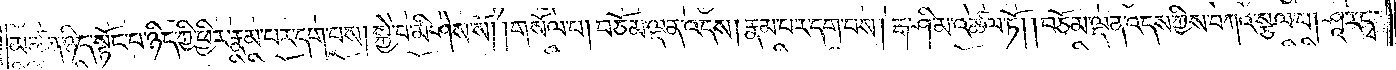མཚན་ཉིད་སྟོང་པ་ཉིད་ཀྱི་ཕྱིར་རྣམ་པར་དག་པས། སྐྱེ་བ་མི་ཤེས་སོ། །གསོལ་པ། བཅོམ་ལྡན་འདས། རྣམ་པར་དག་པས། རྒ་ཤི་མ་འཚལ་ཏོ། །བཅོམ་ལྡན་འདས་ཀྱིས་བཀའ་སྩལ་པ། ཤཱ་ར་དྭ་
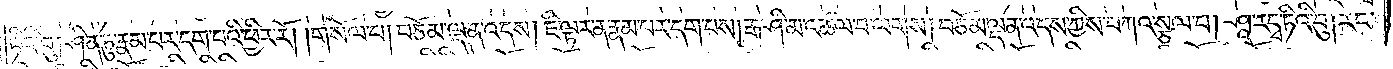ཏིའི་བུ། ཤིན་ཏུ་རྣམ་པར་དག་པའི་ཕྱིར་རོ། །གསོལ་པ། བཅོམ་ལྡན་འདས། ཇི་ལྟར་ན་རྣམ་པར་དག་པས། རྒ་ཤི་མ་འཚལ་བ་ལགས། བཅོམ་ལྡན་འདས་ཀྱིས་བཀའ་སྩལ་པ། ཤཱ་ར་དྭ་ཏིའི་བུ། རང་
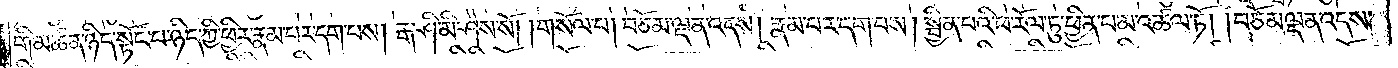གི་མཚན་ཉིད་སྟོང་པ་ཉིད་ཀྱི་ཕྱིར་རྣམ་པར་དག་པས། རྒ་ཤི་མི་ཤེས་སོ། །གསོལ་པ། བཅོམ་ལྡན་འདས། རྣམ་པར་དག་པས། སྦྱིན་པའི་ཕ་རོལ་ཏུ་ཕྱིན་པ་མ་འཚལ་ཏོ། །བཅོམ་ལྡན་འདས་
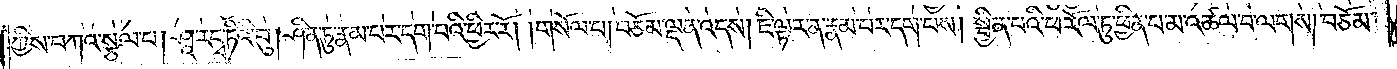ཀྱིས་བཀའ་སྩལ་པ། ཤཱ་ར་དྭ་ཏིའི་བུ། ཤིན་ཏུ་རྣམ་པར་དག་པའི་ཕྱིར་རོ། །གསོལ་པ། བཅོམ་ལྡན་འདས། ཇི་ལྟར་ན་རྣམ་པར་དག་པས། སྦྱིན་པའི་ཕ་རོལ་ཏུ་ཕྱིན་པ་མ་འཚལ་བ་ལགས། བཅོམ་
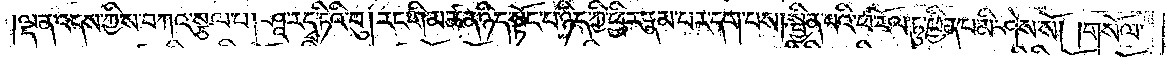ལྡན་འདས་ཀྱིས་བཀའ་སྩལ་པ། ཤཱ་ར་དྭ་ཏིའི་བུ། རང་གི་མཚན་ཉིད་སྟོང་པ་ཉིད་ཀྱི་ཕྱིར་རྣམ་པར་དག་པས། སྦྱིན་པའི་ཕ་རོལ་ཏུ་ཕྱིན་པ་མི་ཤེས་སོ། །གསོལ་
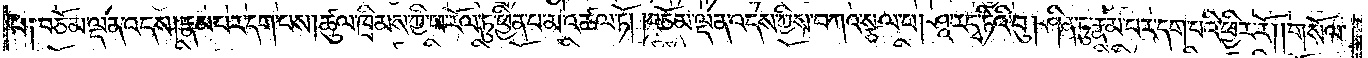པ༑ བཅོམ་ལྡན་འདས། རྣམ་པར་དག་པས། ཚུལ་ཁྲིམས་ཀྱི་ཕ་རོལ་ཏུ་ཕྱིན་པ་མ་འཚལ་ཏོ། །བཅོམ་ལྡན་འདས་ཀྱིས་བཀའ་སྩལ་པ། ཤཱ་ར་དྭ་ཏིའི་བུ། ཤིན་ཏུ་རྣམ་པར་དག་པའི་ཕྱིར་རོ། །གསོལ་
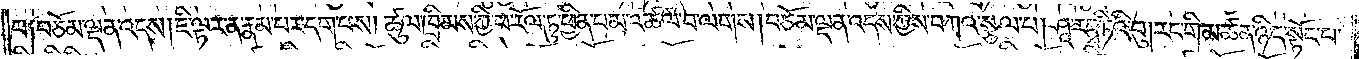པ༑ བཅོམ་ལྡན་འདས། ཇི་ལྟར་ན་རྣམ་པར་དག་པས། ཚུལ་ཁྲིམས་ཀྱི་ཕ་རོལ་ཏུ་ཕྱིན་པ་མ་འཚལ་བ་ལགས། བཅོམ་ལྡན་འདས་ཀྱིས་བཀའ་སྩལ་པ། ཤཱ་ར་དྭ་ཏིའི་བུ། རང་གི་མཚན་ཉིད་སྟོང་པ་
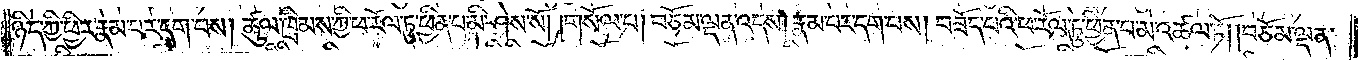ཉིད་ཀྱི་ཕྱིར་རྣམ་པར་དག་པས། ཚུལ་ཁྲིམས་ཀྱི་ཕ་རོལ་ཏུ་ཕྱིན་པ་མི་ཤེས་སོ། །གསོལ་པ། བཅོམ་ལྡན་འདས། རྣམ་པར་དག་པས། བཟོད་པའི་ཕ་རོལ་ཏུ་ཕྱིན་པ་མ་འཚལ་ཏོ། །བཅོམ་ལྡན་
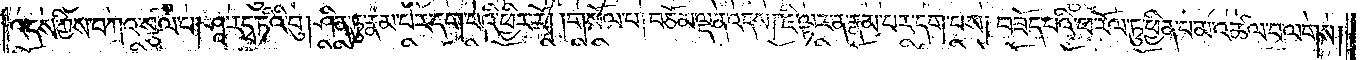འདས་ཀྱིས་བཀའ་སྩལ་པ། ཤཱ་ར་དྭ་ཏིའི་བུ། ཤིན་ཏུ་རྣམ་པར་དག་པའི་ཕྱིར་རོ། །གསོལ་པ། བཅོམ་ལྡན་འདས། ཇི་ལྟར་ན་རྣམ་པར་དག་པས། བཟོད་པའི་ཕ་རོལ་ཏུ་ཕྱིན་པ་མ་འཚལ་བ་ལགས།
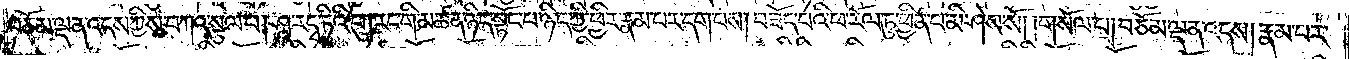བཅོམ་ལྡན་འདས་ཀྱིས་བཀའ་སྩལ་པ། ཤཱ་ར་དྭ་ཏིའི་བུ། རང་གི་མཚན་ཉིད་སྟོང་པ་ཉིད་ཀྱི་ཕྱིར་རྣམ་པར་དག་པས། བཟོད་པའི་ཕ་རོལ་ཏུ་ཕྱིན་པ་མི་ཤེས་སོ། །གསོལ་པ། བཅོམ་ལྡན་འདས། རྣམ་པར་
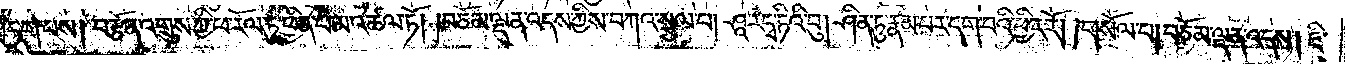དག་པས། བརྩོན་འགྲུས་ཀྱི་ཕ་རོལ་ཏུ་ཕྱིན་པ་མ་འཚལ་ཏོ། །བཅོམ་ལྡན་འདས་ཀྱིས་བཀའ་སྩལ་པ། ཤཱ་ར་དྭ་ཏིའི་བུ། ཤིན་ཏུ་རྣམ་པར་དག་པའི་ཕྱིར་རོ། །གསོལ་པ། བཅོམ་ལྡན་འདས། ཇི་
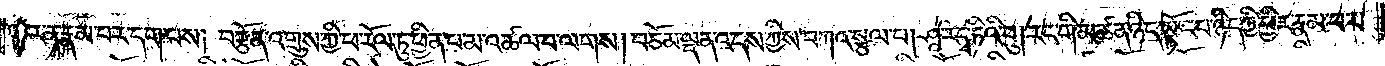ལྟར་ན་རྣམ་པར་དག་པས། བརྩོན་འགྲུས་ཀྱི་ཕ་རོལ་ཏུ་ཕྱིན་པ་མ་འཚལ་བ་ལགས། བཅོམ་ལྡན་འདས་ཀྱིས་བཀའ་སྩལ་པ། ཤཱ་ར་དྭ་ཏིའི་བུ། རང་གི་མཚན་ཉིད་སྟོང་པ་ཉིད་ཀྱི་ཕྱིར་རྣམ་པར་
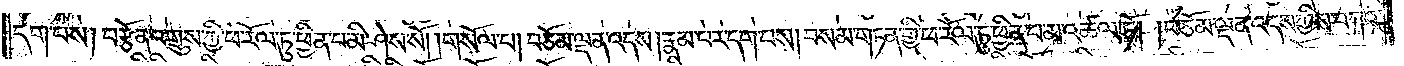དག་པས། བརྩོན་འགྲུས་ཀྱི་ཕ་རོལ་ཏུ་ཕྱིན་པ་མི་ཤེས་སོ། །གསོལ་པ། བཅོམ་ལྡན་འདས། རྣམ་པར་དག་པས། བསམ་གཏན་གྱི་ཕ་རོལ་ཏུ་ཕྱིན་པ་མ་འཚལ་ཏོ། །བཅོམ་ལྡན་འདས་ཀྱིས་བཀའ་
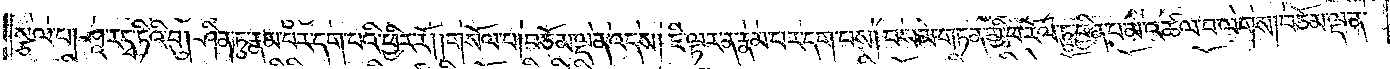སྩལ་པ། ཤཱ་ར་དྭ་ཏིའི་བུ། ཤིན་ཏུ་རྣམ་པར་དག་པའི་ཕྱིར་རོ། །གསོལ་པ། བཅོམ་ལྡན་འདས། ཇི་ལྟར་ན་རྣམ་པར་དག་པས། བསམ་གཏན་གྱི་ཕ་རོལ་ཏུ་ཕྱིན་པ་མ་འཚལ་བ་ལགས། བཅོམ་ལྡན་
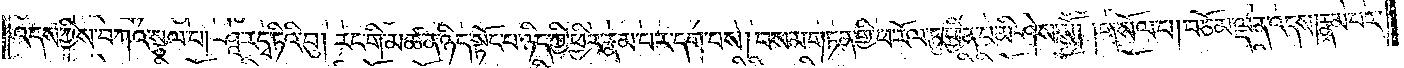འདས་ཀྱིས་བཀའ་སྩལ་པ། ཤཱ་ར་དྭ་ཏིའི་བུ། རང་གི་མཚན་ཉིད་སྟོང་པ་ཉིད་ཀྱི་ཕྱིར་རྣམ་པར་དག་པས། བསམ་གཏན་གྱི་ཕ་རོལ་ཏུ་ཕྱིན་པ་མི་ཤེས་སོ། །གསོལ་པ། བཅོམ་ལྡན་འདས། རྣམ་པར་
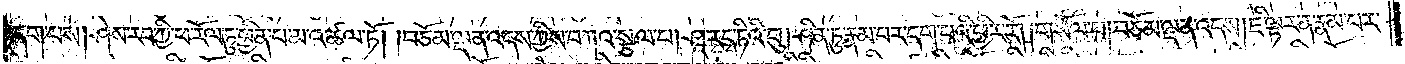དག་པས། ཤེས་རབ་ཀྱི་ཕ་རོལ་ཏུ་ཕྱིན་པ་མ་འཚལ་ཏོ། །བཅོམ་ལྡན་འདས་ཀྱིས་བཀའ་སྩལ་པ། ཤཱ་ར་དྭ་ཏིའི་བུ། ཤིན་ཏུ་རྣམ་པར་དག་པའི་ཕྱིར་རོ། །གསོལ་པ། བཅོམ་ལྡན་འདས། ཇི་ལྟར་ན་རྣམ་པར་
